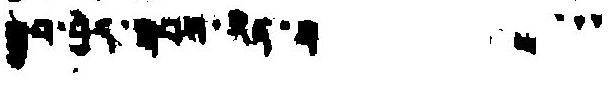སྒྲུབ་བྱེད་སྐབས་རེད་            ་་་
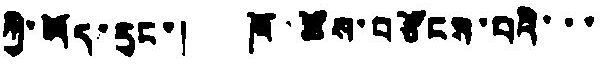ཀྱི་ཡོད་རུང་། ཁོ་ཚོས་བརྩོངས་བའི་་་
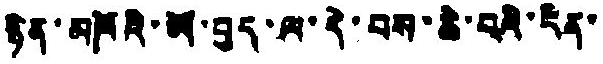ཉིན་མཁོའི་ཡོ་བྱད་ལ་དེ་བས་ཆེ་བའི་རིན་
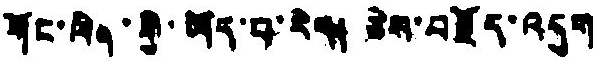གོང་ལིན་གྱི་ཡོད་པ་རེད། ཅེས་བརྗོད་འདུག
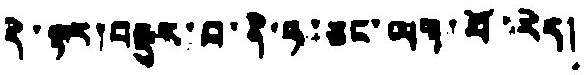དེ་ལྟར།བསྡུར་བ་ནི་ཧ་ཅང་ཡག་པོ་རེད།
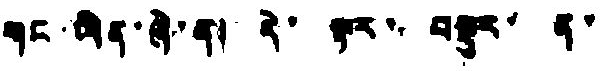གང་ཡིན་ཞེ་ན། དེ་ ལྟར་ བསྡུར་ ན་
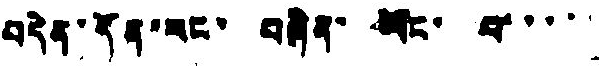བདེན་དོན་རང་ བཞིན་ ཡོང་ བ་་་་་
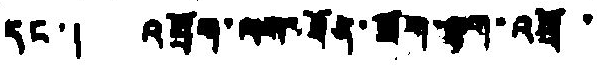དང་། འབྲོག་ལས་ཐོན་ཟོག་ལྷག་འབྲོ་
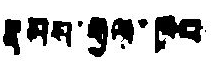རྣམས་རྒྱལ་ཁབ
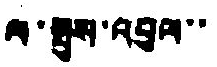ལ་སྤུས་འབུལ་་
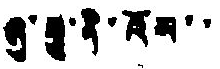ཞུ་རྒྱུ་ནི་འོས་་
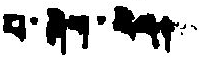བ་ཞིག་རེད།
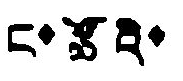ང་ཚོའི་
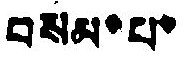བསམ་པ་
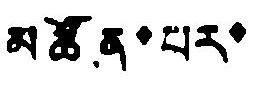མཚོན་པར་
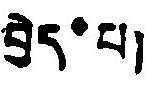བྱེད་པ།
